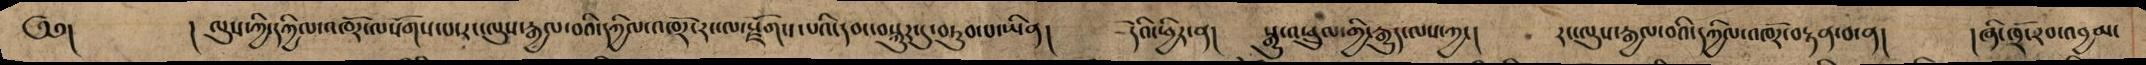༄༅། ། ལུས་ཀྱི་དཀྱིལ་འཁོར་ལསོགས་པ་རང་ལུས་རྒྱལ་བའི་དཀྱིལ་འཁོར་རང་ལ་སྫོགས་པའི་དབང་བསྐུར་དུ་བཏུབ་པ་ཡིན། དེའི་ཕྱིར་ན། སྒྱུ་འཕྲུལ་གྱི་རྒྱུད་ལས་ཀྱང། རང་ལུས་རྒྱལ་བའི་དཀྱིལ་འཁོར་བརྟན་བ་ན། །ཞི་ཁྲོ་རབ་འབྱམ་
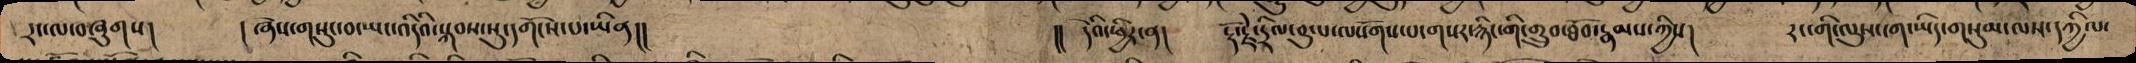དྲང་ལ་བཞུགས། །ཞེས་གསུང་བ་ཡང་འདིའི་སྐབས་སུ་དགོངས་པ་ཡིན།། །། དེའི་ཕྱིར་ན། རྡོ་རྗེ་དྲིལ་བུ་པ་ལསོགས་པ་གསར་རྙིང་གི་གྲུབ་ཐོབ་རྣམས་ཀྱིས། རང་གི་ལུས་ངག་ཡིད་གསུམ་ལས་དཀྱིལ་
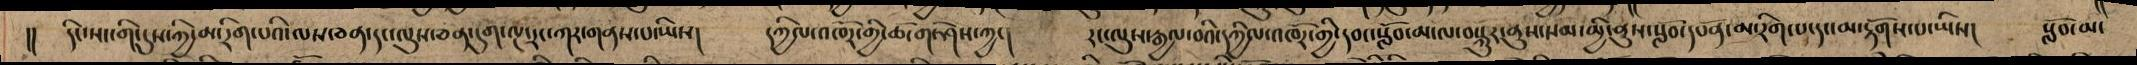།། དིང་སང་གི་དུས་ཀྱི་མ་རིག་པའི་ལས་ཅན་དང་ལུས་ཅན་དུག་ལྔ་རང་ཀར་གནས་པ་ཡིས། དཀྱིལ་འཁོར་གྱི་ཆོ་ག་ཤེས་ཀྱང། རང་ལུས་རྒྱལ་བའི་དཀྱིལ་འཁོར་གྱི་དབང་སློབ་མ་ལ་བསྐུར་ནུས་སམ་མྱི་ནུས་སློབ་དཔོན་མ་རིག་པ་དང་མ་རྟོགས་པ་ཡིས། སློབ་མ་
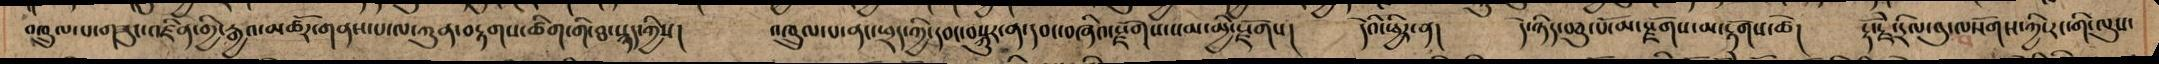འཁྲུལ་པ་གཟུང་འཛིན་གྱི་རྒྱའ་མཚོར་གནས་པ་ལ་ཀུན་བརྟགས་ཚིག་གི་ཐ་སྙད་ཀྱིས། འཁྲུལ་པ་ནང་ཕྲད་ཀྱི་དབང་བསྐུར་ན་དབང་བཞིའ་སྫོགས་སམ་མྱི་སྫོགས། དེའི་ཕྱིར་ན། དེ་ཉིད་བཅུ་པོ་མ་སྫོགས་མ་རྟོགས་ཚེ། རྡོ་རྗེ་དྲིལ་བུ་ལསོགས་ཀྱི་རང་གི་ལུས་
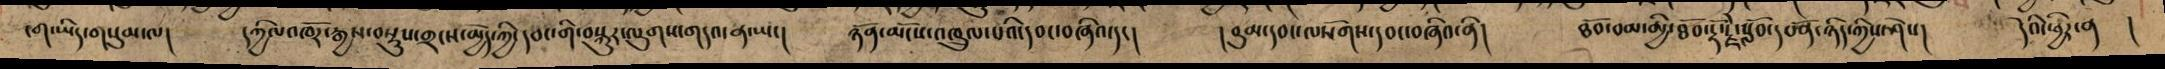ངག་ཡིད་གསུམ་ལ། དཀྱིལ་འཁོར་རྒྱས་བསྡུས་གྲངས་མྱེད་ཀྱི་དབང་གི་བསྐུར་ལུགས་གདའ་ན་ཡང། ཉོན་མོངས་འཁྲུལ་པཔའི་དབང་བཞིའ་དང། །བུམ་དབང་ལསོགས་དབང་བཞིའ་ནི། ཐོབ་བམ་མྱི་ཐོབ་རྡོ་རྗེ་སློབ་དཔོན་ཉིད་ཀྱིས་ཤེས། དེའི་ཕྱིར་ན །
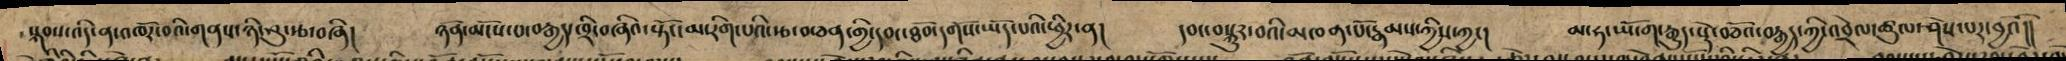སྐབས་འདི་ན་འཁོར་བའི་གནས་ཉི་ཤུ་རྩ་བཞི། ཉོན་མོངས་པ་བརྒྱད་ཁྲི་བཞིའ་སྟོང་མ་རིག་པའི་རྩ་བ་ཅན་གྱི་དབང་རཐོབ་དགོས་པའི་ཕྱིར་ན། དབང་བསྐུར་བའི་མཁན་པོ་རྣམས་ཀྱིས་ཀྱང། མ་ཧ་ཡོ་ག་རྒྱུད་སྡེ་བཅོའ་བརྒྱད་ཀྱི་འབྲེལ་ཚུལ་ཤེས་པར་བྱའོ།།
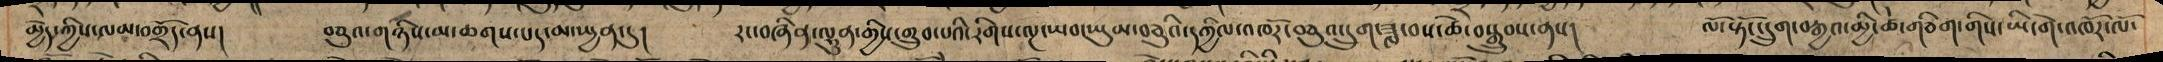མྱེད་ཀྱིས་ལམ་བགྲོད་ནས། བཅུའ་གཉིས་མ་ཆགས་པད་མ་སྤྱན་དུ། རང་བཞིན་ལྷུན་གྱིས་གྲུབ་པའི་རིགས་ལྔ་ཡབ་ཡུམ་བཅུའི་དཀྱིལ་འཁོར་བཅུའ་དྲུག་ཟླ་བས་ཆེ་བསྒྲུབས་ནས། ལོ་སྟོང་དྲུག་བརྒྱའ་མྱི་ཚེ་གཅིག་གིས་ཡི་གེ་འཁོར་ལོ་
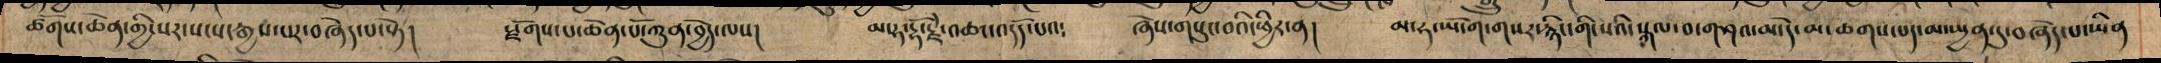ཚོགས་ཆེན་གྱི་སར་སངས་རྒྱས་པར་བཞེད་པ་སྟེ།  སྫོགས་པ་ཆེན་པོ་ཀུན་བྱེད་ལས། མ་ཧ་རྡོ་རྗེ་འཆདྷ་འདོད་པའ༴ ཞེས་གསུང་བའི་ཕྱིར་ན། མ་ཧ་ཡོ་ག་གསར་རྙིང་གི་སའི་སྐལ་བ་གཤའ་མ་དེ་མ་ཆགས་པད་མ་སྤྱན་དུ་བཞེད་པ་ཡིན
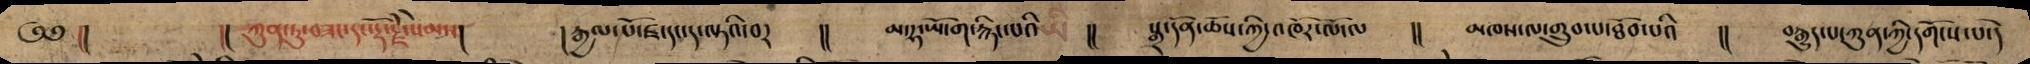༄༅།། །། ཀུན་ཏུ་བཟང་དང་རྡོ་རྗེ་སེམས། །རྒྱལ་པོ་ཛ་དང་ད་ལྟའི་བར །། མ་ཧ་ཡོ་ག་རྙིང་པའི །། སྒྲ་དོན་ཆོས་ཀྱི་འཁོར་ལོ་ལ །། མཁས་ལ་གྲུབ་པ་ཐོབ་པའི །། བརྒྱུད་པ་ཀུན་ཀྱི་དགོངས་པ་དེ
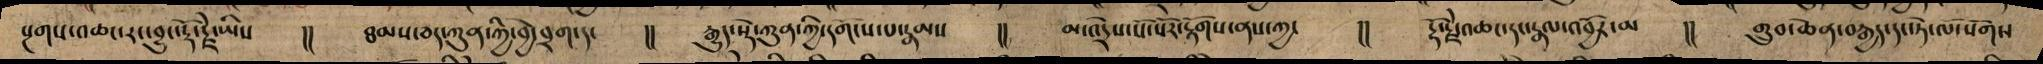སྔགས་འཆང་རང་བྱུང་རྡོ་རྗེ་ཡིས །། ཐམས་ཅད་ཀུན་ཀྱི་བྱེ་བྲག་དང །། རྒྱུད་སྡེ་ཀུན་ཀྱི་དགོངས་པ་རྣམས །། མ་འདྲེས་སོ་སོར་རྟོགས་ནས་ཀྱང །། རྡོ་རྗེ་འཆང་དང་རྣལ་འབྱོར་མ །། གྲུབ་ཆེན་བརྒྱད་དང་ཏེ་ལོ་སོགས
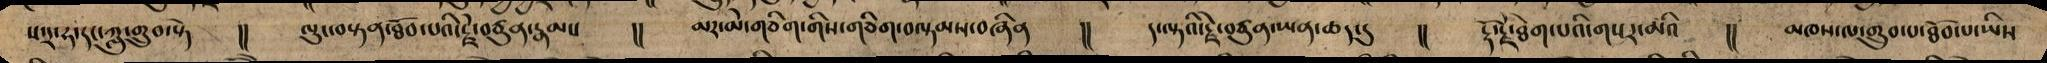ས་ར་ཧ་དང་ཀླུ་གྲུབ་སྟེ །། ལུང་བསྟན་ཐོབ་པའི་རྗེ་བཙུན་རྣམས །། མར་མེ་གཅིག་གིས་གཅིག་བལྟམས་བཞིན །། ད་ལྟའི་རྗེ་བཙུན་ཡན་ཆད་དུ །། རྡོ་རྗེ་ཐེག་པའི་གསར་མའི །། མཁས་ལ་གྲུབ་པ་ཐོབ་པ་ཡིས
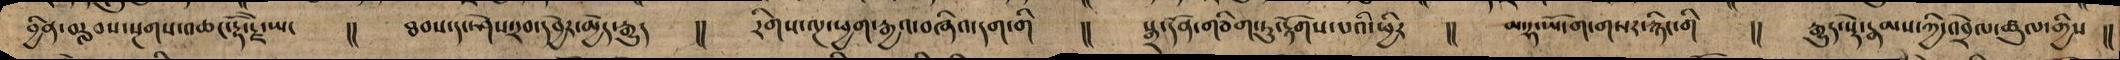བྱིན་བརླབས་སྔགས་འཆང་རྡོ་རྗེ་ཡང །། ཐབས་དང་ཤེས་རབ་དབྱེར་མྱེད་རྒྱུད །། རིགས་ལྔ་ཕྱག་རྒྱའ་བཞིའ་དག་གི །། སྒྲ་དོན་གཅིག་ཏུ་རྟོགས་པའི་ཕྱིར །། མ་ཧ་ཡོ་ག་གསར་རྙིང་གི །། རྒྱུད་སྡེ་རྣམས་ཀྱི་འབྲེལ་ཚུལ་གྱིས །།
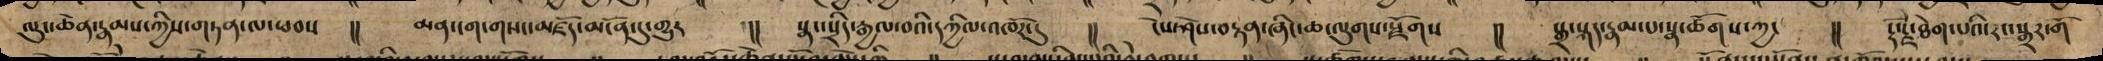ལུང་ཆེན་རྣམས་ཀྱིས་གཏན་ལ་ཕབས །། མན་ངག་གསང་མཛོད་མངོན་དུ་གྱུར །། སྣང་སྲིད་རྒྱལ་བའི་དཀྱིལ་འཁོར་དུ །། ངེས་ཤེས་བརྟན་ཞིང་ཆ་ལུགས་སྫོགས །། སྒྲ་སྐད་རྣམ་པ་སྣ་ཚོགས་ཀྱང །། རྡོ་རྗེ་ཐེག་པའི་རང་སྒྲར་གོ
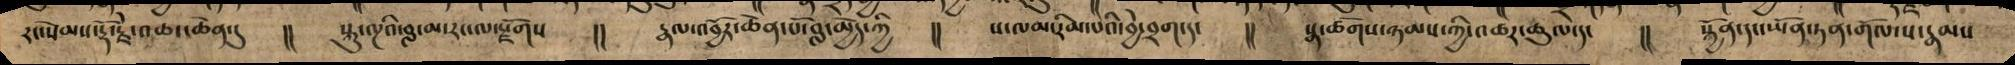རང་སེམས་རྡོ་རྗེ་འཆང་ཆེན་དུ །། སྐུ་ལྔའི་བླ་མ་རང་ལ་སྫོགས །། རྣལ་འབྱོར་ཆེན་པོ་བླ་མྱེད་ཀྱི །། ས་ལམ་རིམ་པའི་བྱེ་བྲག་དང །། སྣ་ཚོགས་ཉམས་ཀྱི་འཆར་ཚུལ་དང །། སྐྱོན་དང་ཡོན་ཏན་གོལ་ས་རྣམས
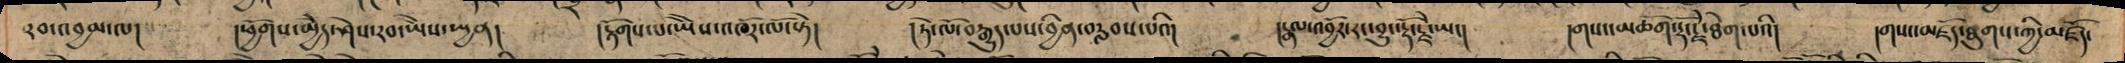རབ་འབྱམ་ལ། །ཕྱོགས་མྱེད་ཤེས་རབ་ཡཻས་སྤྱན། །རྟོགས་པ་ཡཻས་འཁོར་ལོ་སྟེ། །ཏེ་ལོ་བརྒྱུད་པས་བྱིན་བརླབས་པའི། །རྣལ་འབྱོར་རང་བྱུང་རྡོ་རྗེ་ཡང། །གསང་མཆོག་རྡོ་རྗེ་ཐེག་པའི། །གསང་མཛོད་ཐུགས་ཀྱི་མཛོད་
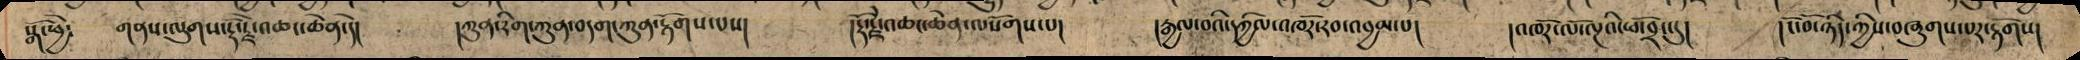སྒོ་ཕྱེ༴ གནས་ལུགས་རྡོ་རྗེ་འཆང་ཆེན་དེ། །ཀུན་རིག་ཀུན་བདག་ཀུན་རྟོགས་པས། །རྡོ་རྗེ་འཆང་ཆེན་ལསོགས་པ། །རྒྱལ་བའི་དཀྱིལ་འཁོར་རབ་འབྱམ་པ། །འཁོར་ལོ་ལྔའི་ཕོ་བྲང་དུ། །ངོ་བོ་ཉིད་ཀྱིས་བཞུགས་པར་རྟོགས།
